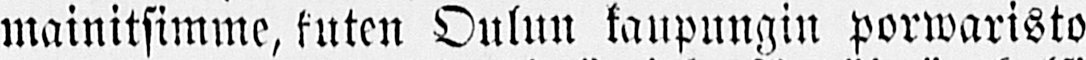mainitsimme, kuten Oulun kaupungin porwaristo
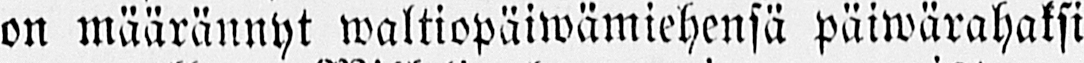on määrännyt waltiopäiwämiehensä päiwärahaksi
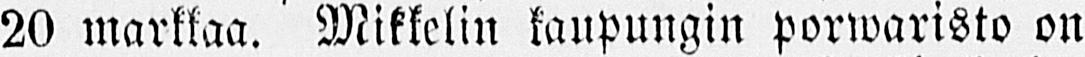20 markkaa. Mikkelin kaupungin porwaristo on
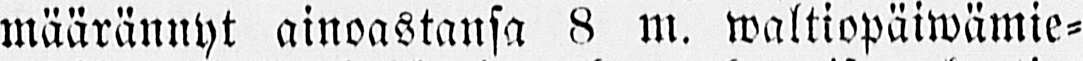määrännyt ainoastansa 8 m. waltiopäiwämie-
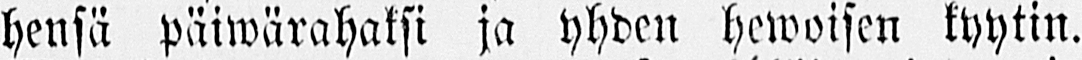hensä päiwärahaksi ja yhden hewoisen kyytin.
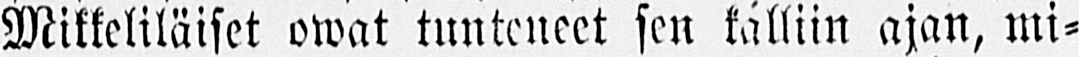Mikkeliläiset owat tunteneet sen kalliin ajan, mi-
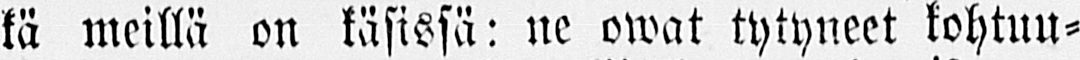kä meillä on käsissä: ne owat tytyneet kohtuu-
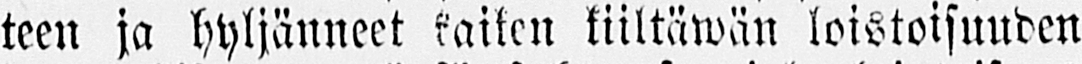teen ja hyljänneet kaiken kiiltäwän loistoisuuden
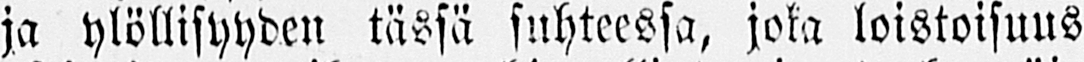ja ylöllisyyden tässä suhteessa, joka loistoisuus
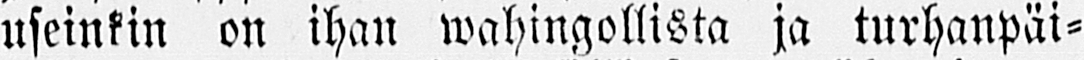useinkin on ihan wahingollista ja turhanpäi-
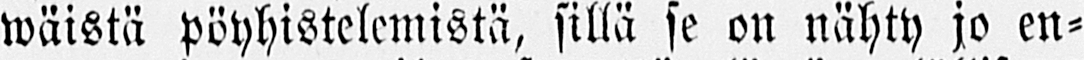wäistä pöyhistelemistä, sillä se on nähty jo en-
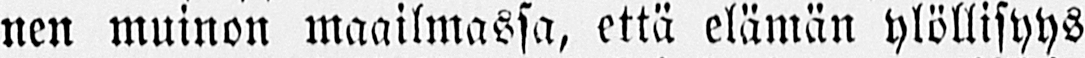nen muinon maailmassa, että elämän ylöllisyys
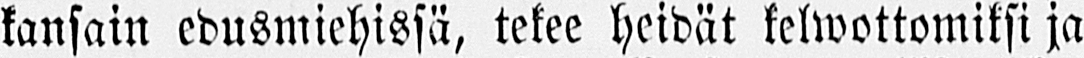kansain edusmiehissä, tekee heidät kelwottomiksi ja
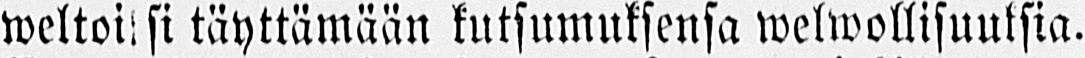weltoiksi täyttämään kutsumuksensa welwollisuuksia.
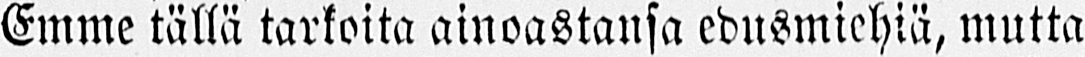Emme tällä tarkoita ainoastansa edusmiehiä, mutta
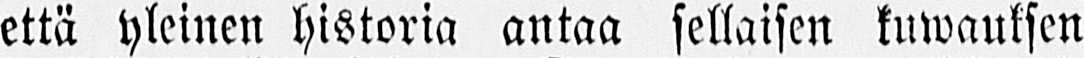että yleinen historia antaa sellaisen kuwauksen
